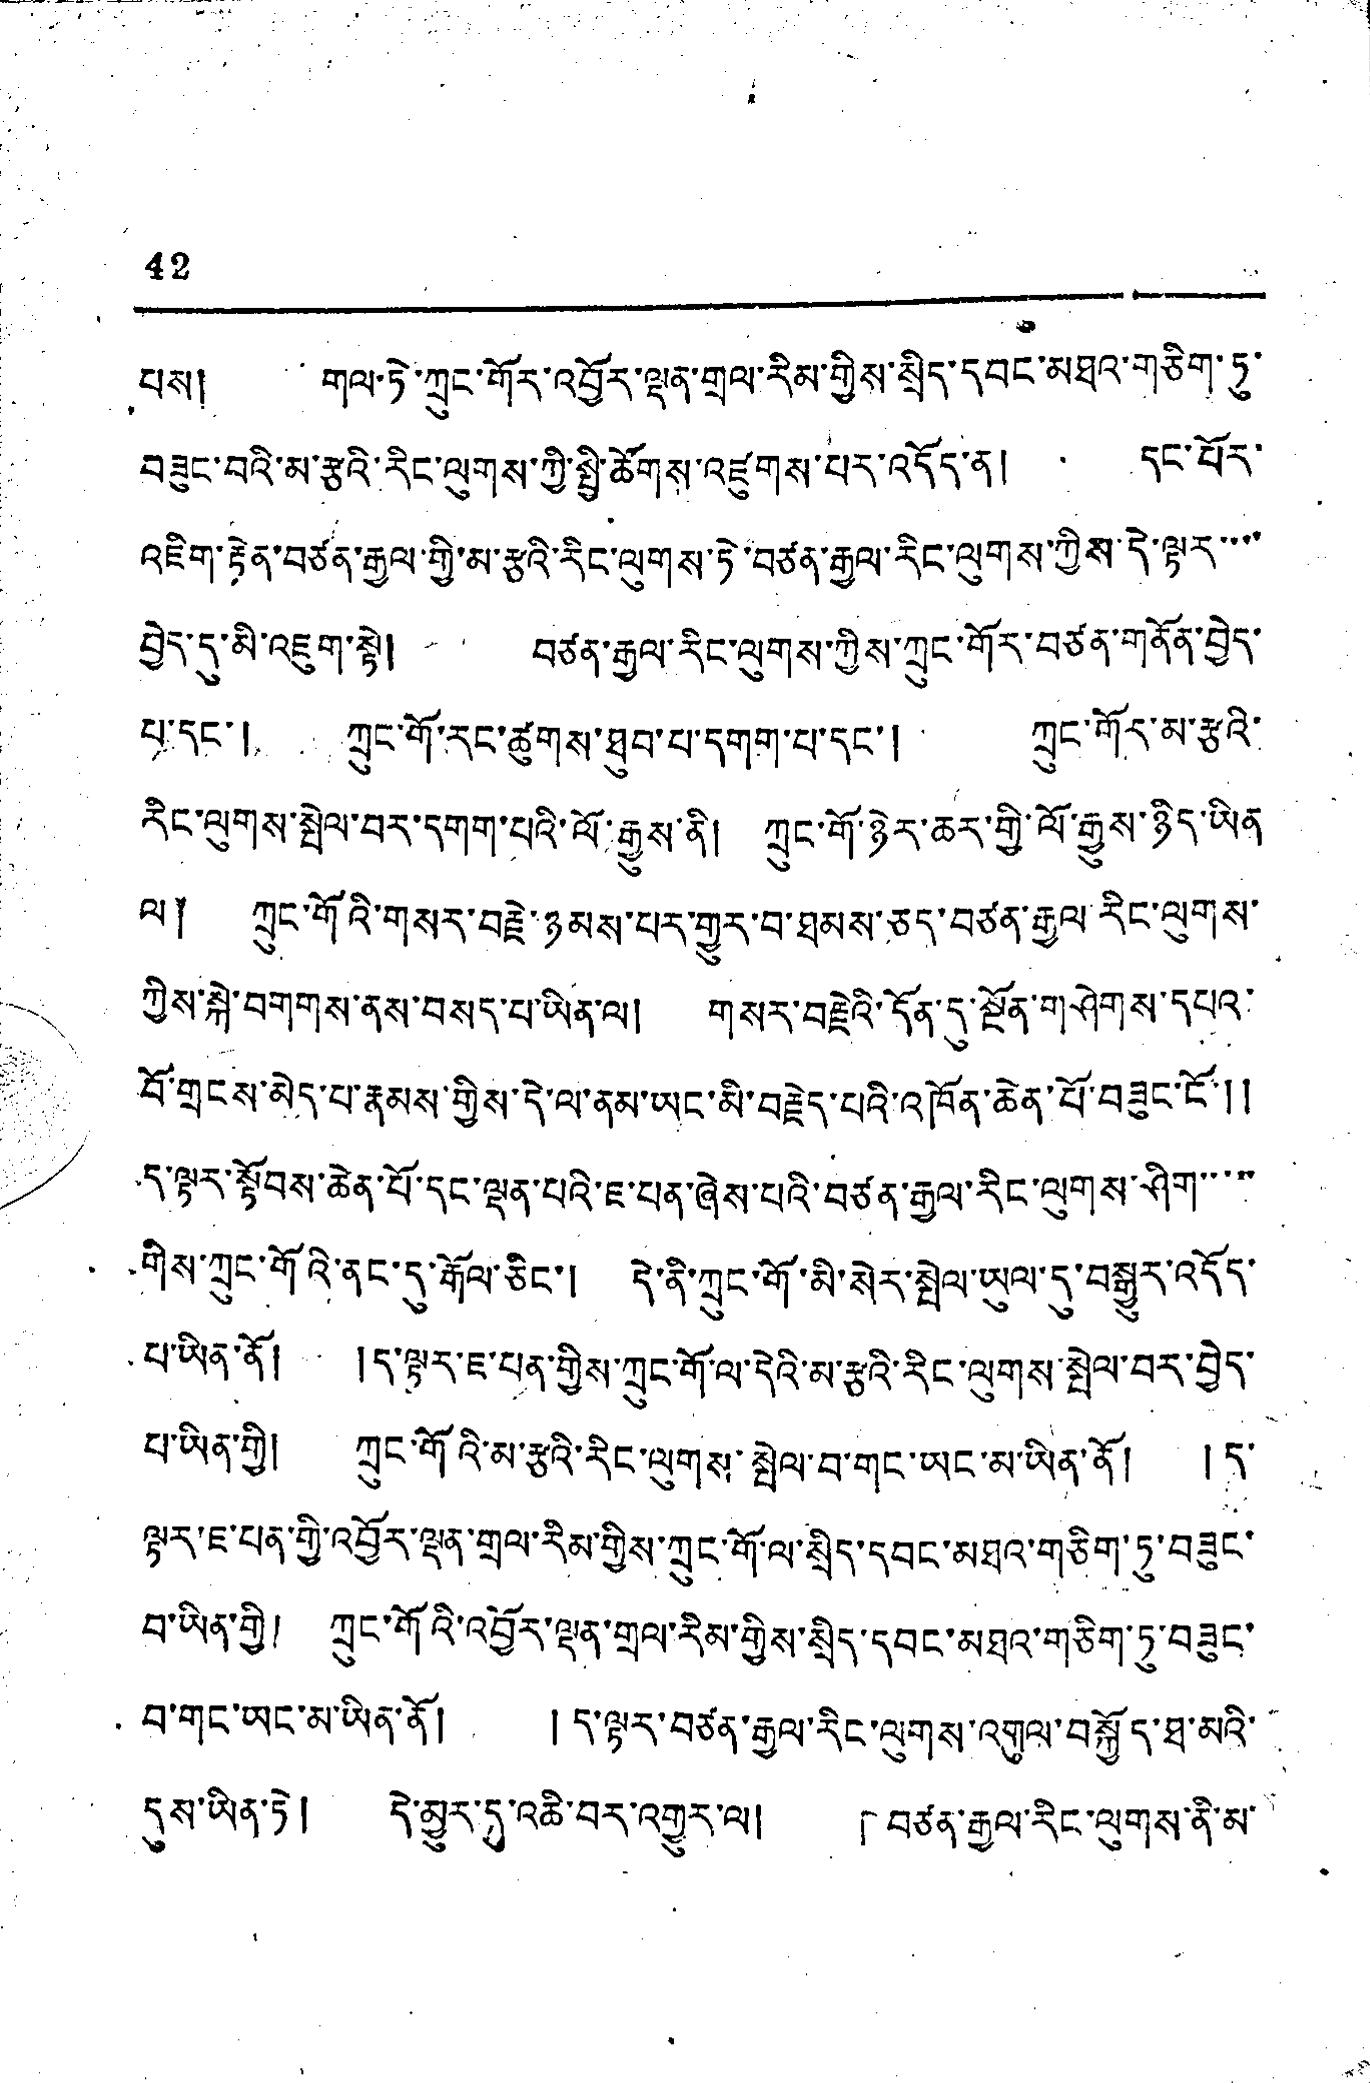42
པས། གལ་ཏེ་ཀྲུང་གོར་འབྱོར་ལྡན་གྲལ་རིམ་གྱིས་སྲིད་དབང་མཐའ་གཅིག་ཏུ་
བཟུང་བའི་མ་རྩའི་རིང་ལུགས་ཀྱི་སྤྱི་ཚོགས་འཛུགས་པར་འདོད་ན། དང་པོར་
འཇིག་རྟེན་བཙན་རྒྱལ་གྱི་མ་རྩའི་རིང་ལུགས་ཏེ་བཙན་རྒྱལ་རིང་ལུསྒ་ཀྱིས་དེ་ལྟར་་་་
བྱེད་དུ་མི་འཇུག་སྟེ། བཙན་རྒྱལ་རིང་ལུགས་ཀྱིས་ཀྲུང་གོར་བཙན་གནོན་བྱེད་
པ་དང་། ཀྲུང་གོ་རང་ཚུགས་ཐུབ་པ་དགག་པ་དང་། ཀྲུང་གོར་མ་རྩའི་
རིང་ལུགས་སྤེལ་བར་དགག་པའི་ལོ་རྒྱུས་ནི། ཀྲུང་གོ་ཉེར་ཆར་གྱི་ལོ་རྒྱུས་ཉིས་ཡིན
ལ༈ ཀྲུང་གོའི་གསར་བརྗེ་ཉམས་པར་གྱུར་བ་ཐམས་ཅད་བཙན་རྒྱལ་རིང་ལུགས་
ཀྱིས་སྐེ་བགགས་ནས་བསད་པ་ཡིན་ལ། གསར་བརྗེའི་དོན་དུ་སྔོན་གཤེགས་དཔའ་
བོ་གྲངས་མེད་པ་རྣམས་གྱིས་དེ་ལ་ནམ་ཡང་མི་བརྗེད་པའི་འཁོན་ཆེན་པོ་བཟུང་ངོ་།།
ད་ལྟར་སྟོབས་ཆེན་པོ་དང་ལྡན་པའི་ཇ་པན་ཞེས་པའི་བཙན་རྒྱལ་རིང་ལུགས་ཤིག་་་་
གིས་ཀྲུང་གོའི་ནང་དུ་རྒོལ་ཅིང་། དེ་ནི་ཀྲུང་གོ་མི་སེར་སྤེལ་ཡུལ་དུ་བསྒྱུར་འདོད་
པ་ཡིན་ནོ། །ད་ལྟར་ཇ་པན་གྱིས་ཀྲུང་གོ་ལ་དེའི་མ་རྩའི་རིང་ལུགས་སྤེལ་བར་བྱེད་
པ་ཡིན་གྱི། ཀྲུང་གོའི་མ་རྩའི་རིང་ལུགས་སྤེལ་བ་གང་ཡང་མ་ཡིན་ནོ། །ད་
ལྟར་ཇ་པན་གྱི་འབྱོར་ལྡན་གྲལ་རིམ་གྱིས་ཀྲུང་གོ་ལ་སྲིད་དབང་མཐའ་གཅིག་ཏུ་བཟུང་
བ་ཡིན་གྱི། ཀྲུང་གོའི་འབྱོར་ལྡན་གྲལ་རིམ་གྱིས་སྲིད་དབང་མཐའ་གཅིག་ཏུ་བཟུང་
བ་གང་ཡང་མ་ཡིན་ནོ། ། ད་ལྟར་བཙན་རྒྱལ་རིང་ལུགས་འགུལ་བསྐྱོད་ཐ་མའི་
དུས་ཡིན་ཏེ། དེ་མྱུར་དུ་འཆི་བར་འགྱུར་ལ། 「བཙན་རྒྱལ་རིང་ལུགས་ནི་མ་
